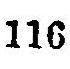116
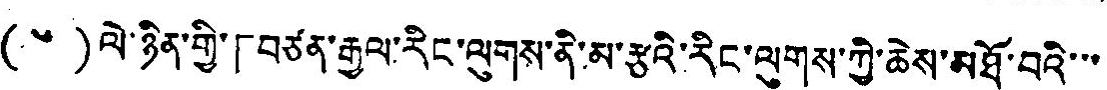(༦)ལེ་ཉིན་གྱི་「གཙན་རྒྱལ་རིང་ལུགས་ནི་མ་རྩའི་རིང་ལུགས་ཀྱི་ཆེས་མཐོ་བའི་་་
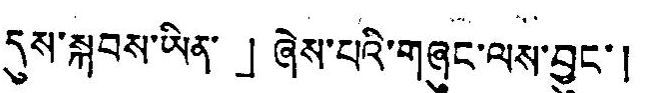དུས་སྐབས་ཡིན་」ཞེས་པའི་གཞུང་ལས་བྱུང་།
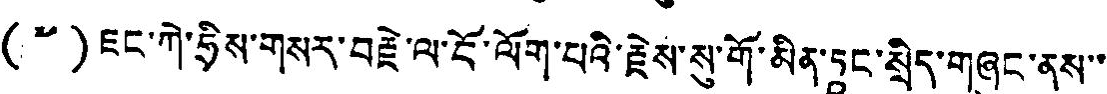(༧)ཇང་ཀེ་ཧྲིས་གསར་བརྗེ་ལ་ངོ་ལོག་པའི་རྗེས་སུ་གོ་མིན་ཏཱང་སྲིད་གཞུང་ནས་་
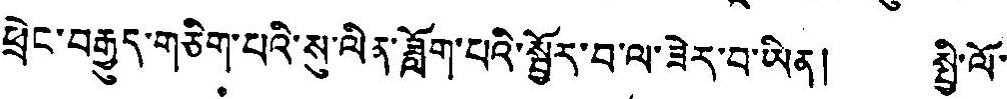ཕྲེང་བརྒྱུད་གཅིག་པའི་སུ་ལིན་ཟློག་པའི་སྦྱོར་བ་ལ་ཟེར་བ་ཡིན། སྤྱི་ལོ་
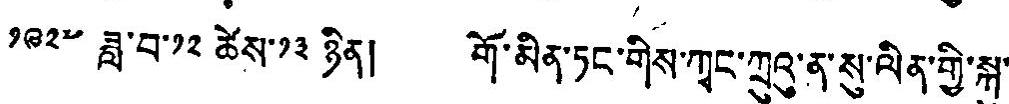༡༩༢༧ ཟླ་བ་༡༢ ཚེས་༡༣ ཉིན། གོ་མིན་ཏང་གིས་ཀྭང་ཀྲུའུ་ན་སུ་ལིན་གྱི་སྐུ་
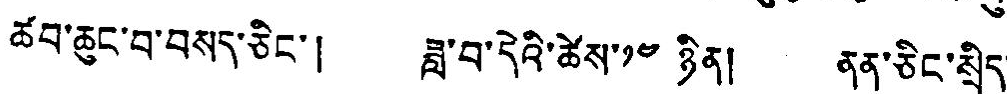ཚབ་ཆུང་བ་བསད་ཅིང་། ཟླ་བ་དེའི་ཚེས་༡༤ ཉིན། ནན་ཅིང་སྲིད་
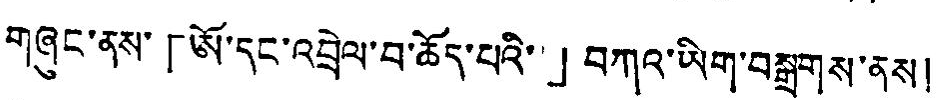གཞུང་ནས་「ཨོ་དང་འབྲེལ་བ་ཆོད་པའི་」བཀའ་ཡིག་བསྒྲགས་ནས།
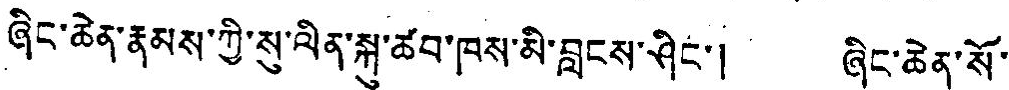ཞིང་ཆེན་རྣམས་ཀྱི་སུ་ལིན་སྐུ་ཚབ་ཁས་མི་བླངས་ཤིང་། ཞིང་ཆེན་སོ་
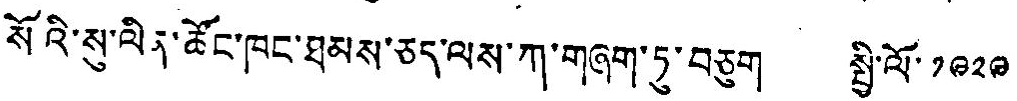སོའི་སུ་ལིན་ཚོང་ཁང་ཐམས་ཅད་ལས་ཀ་གཞག་ཏུ་བཅུག སྤྱི་ལོ་༡༩༢༩
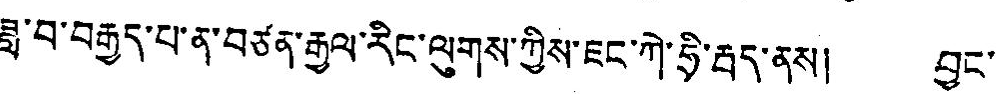ཟླ་བ་བརྒྱད་པ་ན་བཙན་རྒྱལ་རིང་ལུགས་ཀྱིས་ཇང་ཀེ་ཧྲི་རྦད་ནས། བྱང་
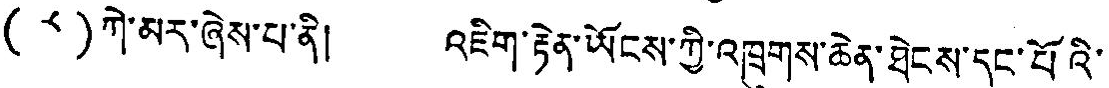(༨)ཀེ་མར་ཞེས་པ་ནི། འཇིག་རྟེན་ཡོངས་ཀྱི་འཁྲུགས་ཆེན་ཐེངས་དང་པོའི་
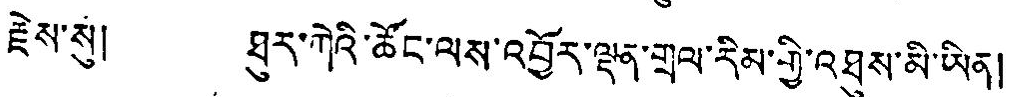རྗེས་སུ། ཐུར་ཀེའི་ཚོང་ལས་འབྱོར་ལྡན་གྲལ་རིམ་གྱི་འཐུས་མི་ཡིན།
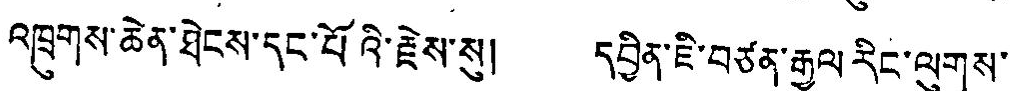འཁྲུགས་ཆེན་ཐེངས་དང་པོའི་རྗེས་སུ། དབྱིན་ཇི་བཙན་རྒྱལ་རིང་ལུགས་
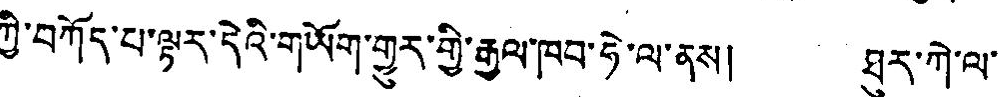ཀྱི་བཀོད་པ་ལྟར་དེའི་གཡོག་གྱུར་གྱི་རྒྱལ་ཁབ་ཧེ་ལ་ནས། ཐུར་ཀེ་ལ་
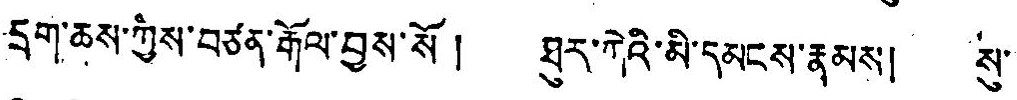དྲག་ཆས་ཀྱིས་བཙན་རྒོལ་བྱས་སོ། ཐུར་ཀེའི་མི་དམངས་རྣམས། སུ་
